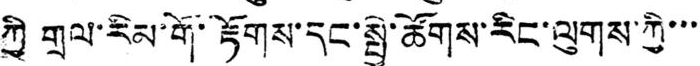ཀྱི གྲལ་རིམ་གོ་རྟོགས་དང་སྤྱི་ཚོགས་རིང་ལུགས་ཀྱི་་་
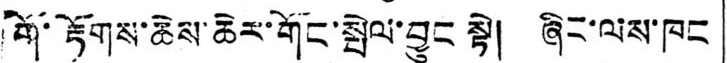གོ་རྟོགས་ཆེས་ཆེར་གོང་སྤེལ་བྱུང སྟེ། ཞིང་ལས་ཁང
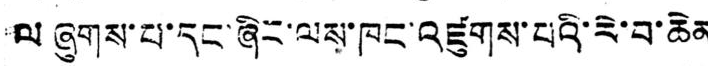ལ ཞུགས་པ་དང་ཞིང་ལས་ཁང་འཛུགས་པའི་རེ་བ་ཆེན
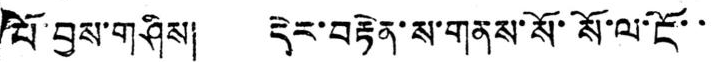པོ་བྱས་གཤིས། དེར་བརྟེན་ས་གནས་སོ་སོ་ལ་ངོ་་
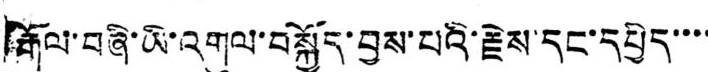རྒོལ་བཞི་ཡི་འགུལ་བསྐྱོད་བྱས་པའི་རྗེས་དང་དཔྱིད་་་་
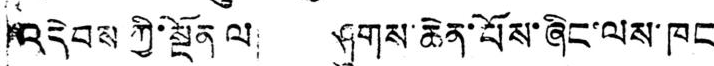འདེབས ཀྱི་སྔོན ལ། ཤུགས་ཆེན་པོས་ཞིང་ལས་ཁང
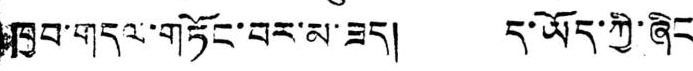ཁྱབ་གདའ་གཏོང་བར་མ་ཟད། ད་ཡོད་ཀྱི་ཞིང་
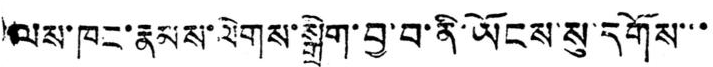ལས་ཁང་རྣམས་ལེགས་སྒྲིག་བྱ་བ་ནི་ཡོངས་སུ་དགོས་་་
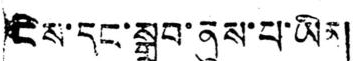ངེས་དང་སྒྲུབ་ནུས་པ་ཡིན།
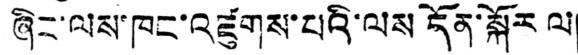ཞིང་ལས་ཁང་འཛུགས་པའི་ལས དོན་སྐོར ལ།
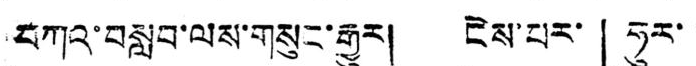བཀའ་བསླབ་ལས་གསུང་རྒྱུར། ངེས་པར་「ཧུར་་
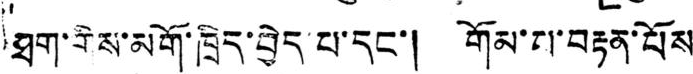ཐག་གིས་མགོ་ཁྲིད་བྱེད་པ་དང་། གོམ་པ་བརྟེན་པོས་
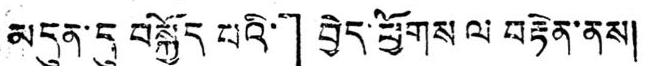མདུན་དུ བསྐྱོད པའི་」བྱེད་ཕྱོགས ལ བརྟེན་ནས།
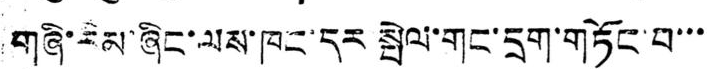གཞི་རིམ་ཞིང་ལས་ཁང་དར སྤེལ་གང་དྲག་གཏོང་བ་་་
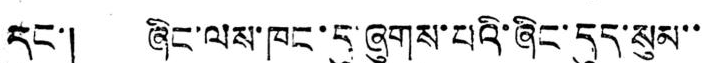དང་། ཞིང་ལས་ཁང་དུ་ཞུགས་པའི་ཞིང་དུད་སུམ་་
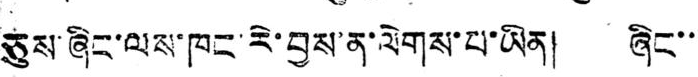ཅུས་ཞིང་ལས་ཁང་རེ་བྱས་ན་ལེགས་པ་ཡིན། ཞིང་་
